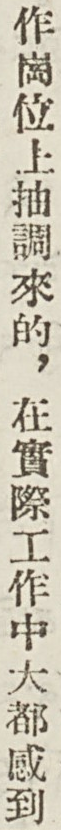作崗位上抽調來的，在實際工作中大都感到
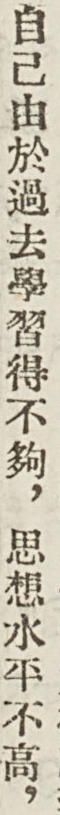自己由於過去學習得不夠，思想水平不高，
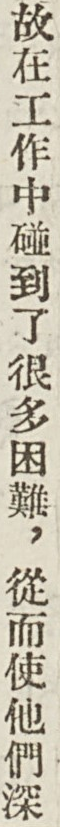故在工作中碰到了很多困難，從而使他們深
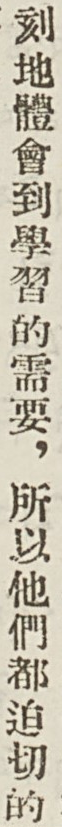刻地體會到學習的需要，所以他們都迫切的
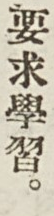要求學習。
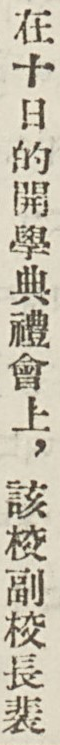在十日的開學典禮會上，該校副校長裴
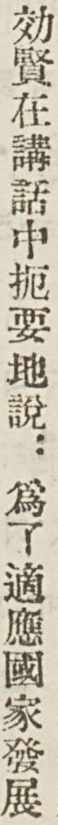効賢在講話中扼要地說：爲了適應國家發展
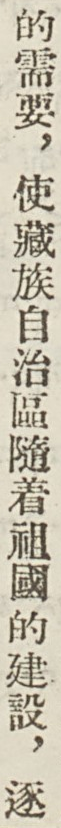的需要，使藏族自治區隨着祖國的建設，逐
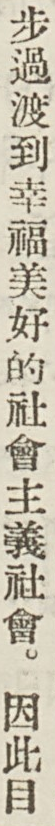步過渡到幸福美好的社會主義社會。因此目
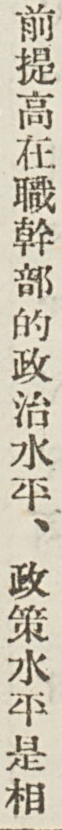前提高在職幹部的政治水平、政策水平是相
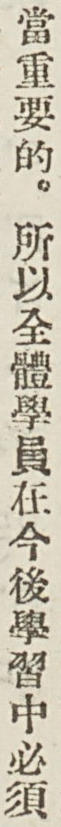當重要的。所以全體學員在今後學習中必須
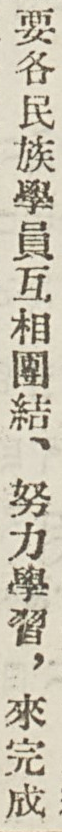要各民族學員互相團結、努力學習，來完成
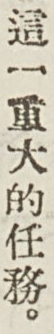這一重大的任務。
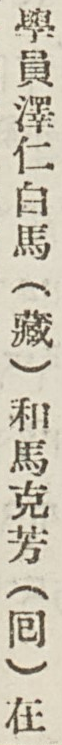學員澤仁白馬（藏）和馬克芳（囘）在
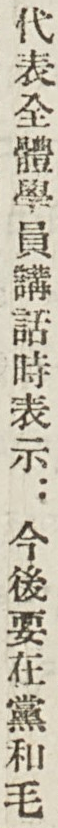代表全體學員講話時表示：今後要在黨和毛
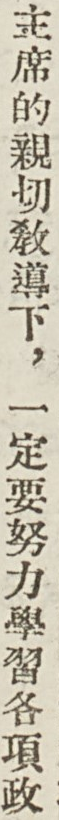主席的親切敎導下，一定要努力學習各項政
